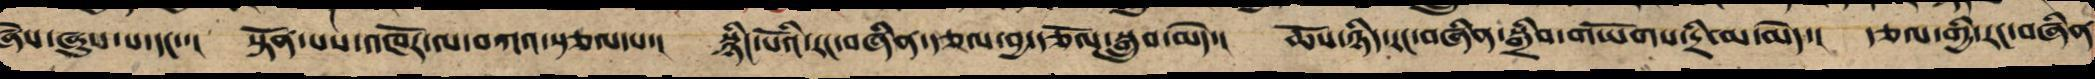ཞེས་ཞུས་པ་དང་་། སྟོན་པས་འཁོར་ལ་བཀའ་སྩལ་པ་། སྙིང་པོའི་རང་བཞིན་རྩལ་བྱ་རྩོལ་སྒྲུབ་མེད་། ཆོས་ཉིད་རང་བཞིན་སྒྲིབ་གཡོགས་དྲི་མ་མེད་། རྩལ་གྱི་རང་བཞིན
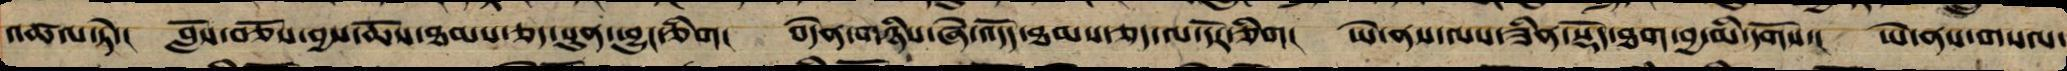འཚལ་ཏེ་། བློས་བཅོས་བྱས་ཆོས་ཐམས་ཅད་སུན་ཕྱུང་ཞིག། བདེན་གཉིས་ཞེ་འདོད་ཐམས་ཅད་ལ་དོར་ཅིག། ཡེ་ནས་ལས་ཟིན་སྡོད་ཐག་བྱ་མི་དགོས་། ཡེ་ནས་གསལ་
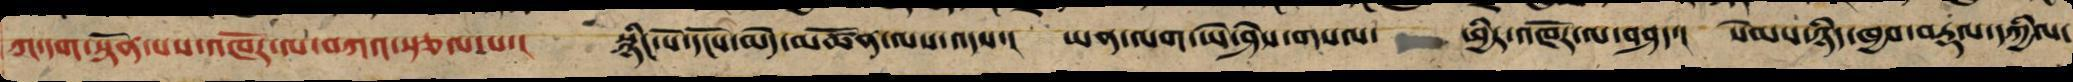ཀ་དག་སྟོན་པས་འཁོར་ལ་བཀའ་སྩལ་པ་། སྙིང་པོ་དངོས་མེད་མཚོན་ལས་འདས་། ཡན་ལག་ཡེ་ཤེས་གསལ་ཕྱིར་འཁོར་ལ་བཤད་། སེམས་ཉིད་ཁྱབ་སརྡལ་དཀྱིལ་
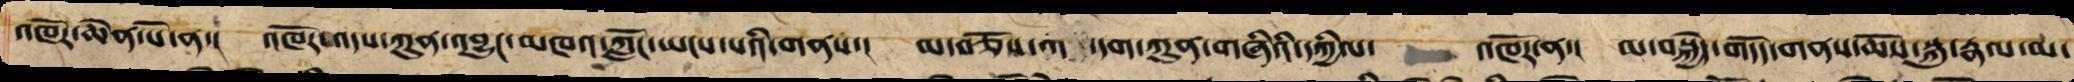འཁོར་ཆེན་པོ་ན་། འཁོར་འདས་ཀུན་འབྱུང་མཁའ་ཀློང་ཡངས་པའི་གནས་། མ་བཅོས་གདོད་དག་ཀུན་གཞིའི་དཀྱིལ་འཁོར་ན་། མ་བསྐྱེད་གདོད་གནས་ཆོས་སྐུ་རྣལ་མ་
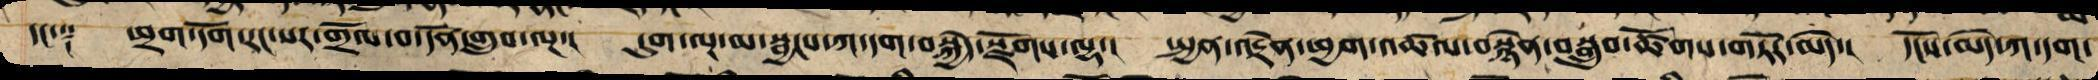དང་༑ ཕྲག་དོག་རང་སར་གྲོལ་བ་དོན་གྲུབ་ལྔ་། དུག་ལྔ་མ་སྦྱངས་ཀ་དག་བསྐྱེད་སྫོགས་ལྷ་། སྤྱན་འདྲེན་ཕྱག་འཚལ་བསྙེན་བསྒྲུབ་ཚོགས་གཏོར་མེད་། དངོས་མེད་ཀ་དག་
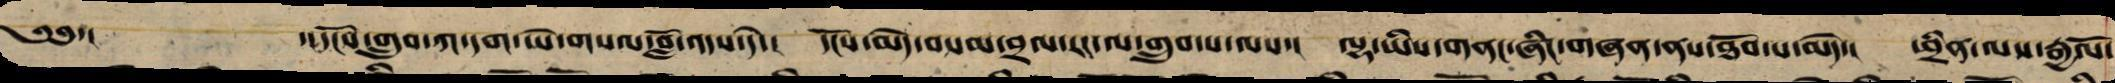༄༅་། ་།དངོས་གྲུབ་ཀ་དག་ཡེ་གསལ་བློ་འདས་དེ་། དངོས་མེད་བསམ་བྲལ་རང་ལ་གྲུབ་པ་ལས་། ལྷ་ཡིས་གནང་ཞིང་གཞན་ནས་ཐོབ་པ་མེད་། ཕྲིན་ལས་རྒྱལོ་
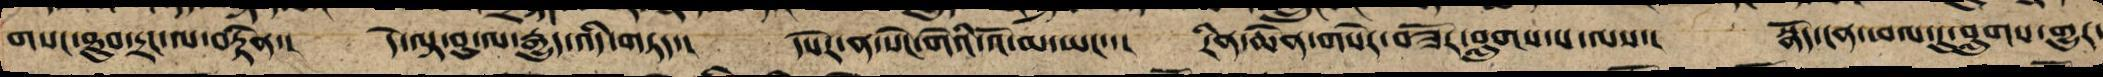གསང་ཐུབ་དྲང་ལ་བརྟེན་། དེ་ལྟ་བུ་ལ་རྒྱུད་འདི་གཏད་། དཔེར་ན་སེང་གེའི་འོ་མ་ཡང་་། རིན་ཆེན་གསེར་བཟོར་བླུགས་པ་ལས་། སྣོད་ངན་ཕལ་དུ་བླུགས་གྱུར་
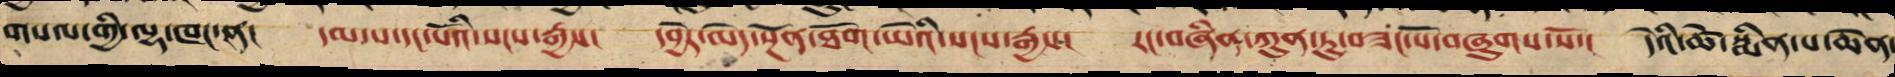གསལ་གྱི་ལྷ་ཁང་ན། དམ་པ་དང་པོའི་སངས་རྒྱས། དབྱེར་མེད་སྔོན་ཐོག་ཡེའི་སངས་རྒྱས། རང་བཞིན་ཀུན་ཏུ་བཟང་པོ་བཞུགས་སོ་། དེའི་ཚེ་སྨིན་པ་ཆེན་
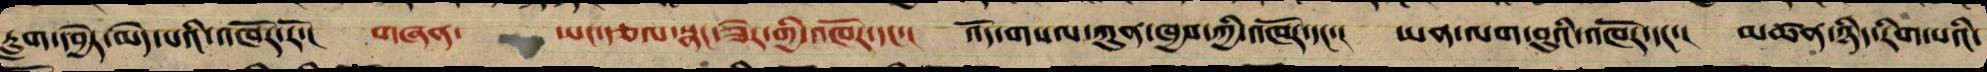རླག་དབྱེར་མེད་པའི་འཁོར་རོ་། གཞན་ ཡང་རྩལ་སྣང་ཟེར་གྱི་འཁོར་དང་། འོད་གསལ་ཀུན་ཁྱབ་ཀྱི་འཁོར་དང་། ཡན་ལག་བུའི་འཁོར་དང་། མཚན་ཉིད་རིག་པའི་
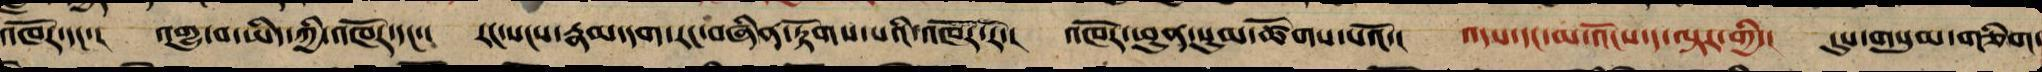འཁོར་དང་། འགྱུ་བ་ཡིད་ཀྱི་འཁོར་དང་། རང་སངས་རྣམ་དག་རང་བཞིན་རྟོགས་པའི་འཁོར་རོ་། འཁོར་ཕུན་སུམ་ཚོགས་པའོ་། འདས་དང་མ་འོངས་ད་ལྟར་གྱི་། དུས་གསུམ་གཅིག་
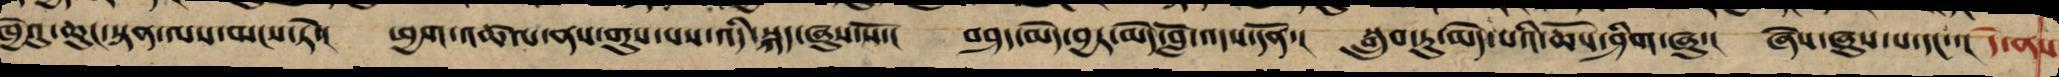ཁྱེའུ་ཆུང་སྟན་ལས་ལངས་ཏེ་། ཕྱག་འཚལ་ནས་གུས་པས་འདི་སྐད་ཞུས་སོ་། བཤད་མེད་བྱར་མེད་བློ་འདས་དོན་། སྒྲུབ་ཏུ་མེད་པའི་ཆོས་ཤིག་ཞུ་། ཞེས་ཞུས་པ་དང་་། དེ་ནས
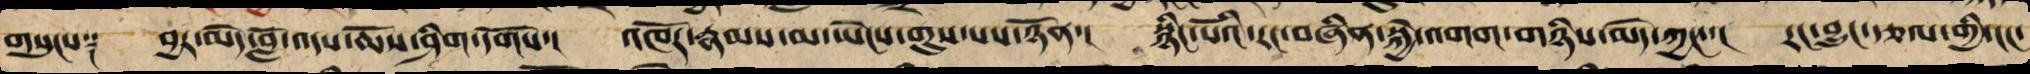གསུངས༑ བྱར་མེད་བློ་འདས་ཆོས་ཤིག་དགོས་། འཁོར་རྣམས་མ་ཡེངས་གུས་པས་ཉོན་། སྙིང་པོའི་རང་བཞིན་སྐྱེ་འགག་གཉིས་མེད་ཀྱང་་། རང་བྱུང་རྩལ་གྱི་ངང་
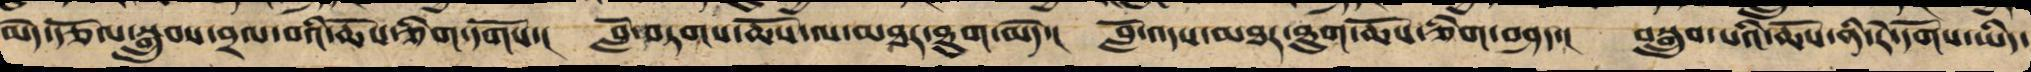མེད་རྩོལ་སྒྲུབས་བྲལ་བའི་ཆོས་ཅིག་དགོས་། བློ་བཏགས་ཆོས་ལ་མཐར་ཐུག་མེད་། བློ་འདས་མཐར་ཐུག་ཆོས་ཅིག་བཤད་། བསྒྲུབ་པའི་ཆོས་ནི་རེ་དོགས་ཡིད་
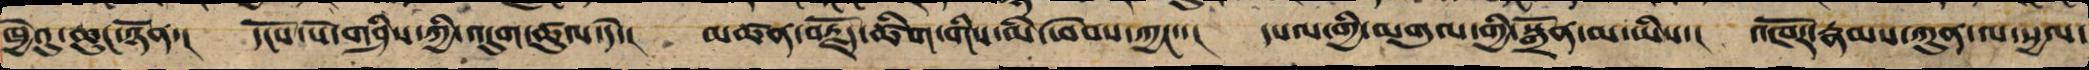ཁྱེའུ་ཆུང་ཉོན་། དངོས་པོ་གཤིས་ཀྱི་འདུག་ཚུལ་དེ་། མཚོན་བརྗོད་ཚིག་གིས་མི་ཕེབས་ཀྱང་་། དཔལ་གྱི་མགུལ་གྱི་སྒྲོན་མ་ཡིས་། འཁོར་རྣམས་ཀུན་ལ་སྱལ་
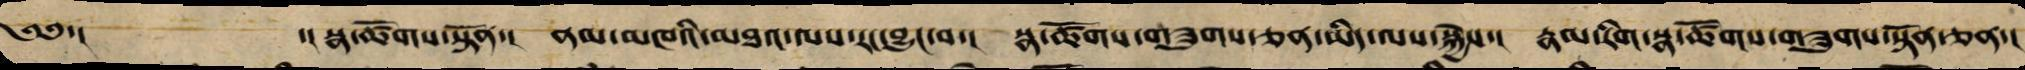༄༅་། ་།སྣ་ཚོགས་སྟོན་། ནམ་མཁའི་མཐའ་ལས་རང་བྱུང་བ་། སྣ་ཚོགས་གཟུགས་ཅན་ཡིད་ལས་སྐྱེས་། རྣམ་རིག་སྣ་ཚོགས་གཟུགས་སྟོན་ཅན་།
